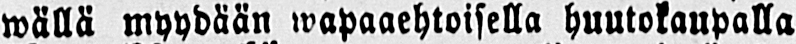wällä myydään wapaaehtoisella huutokaupalla
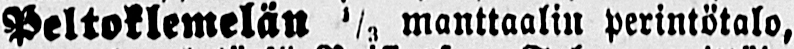Peltoklemelän ⅓ manttaalin perintötalo,
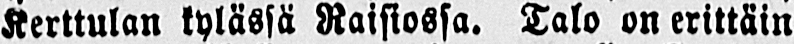Kerttulan kylässä Raisiossa. Talo on erittäin
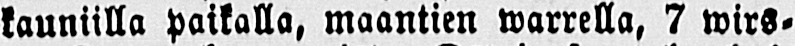kauniilla paikalla, maantien warrella, 7 wirs-
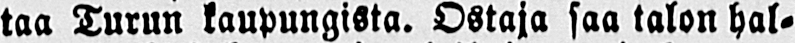taa Turun kaupungista. Ostaja saa talon hal-
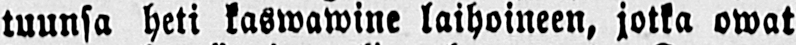tuunsa heti kaswawine laihoineen, jotka owat
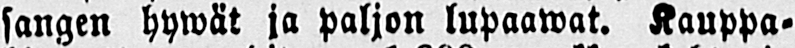sangen hywät ja paljon lupaawat. Kauppa-
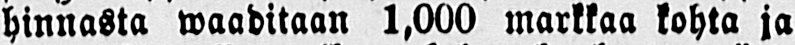hinnasta waaditaan 1,000 markkaa kohta ja
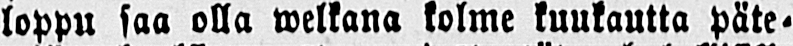loppu saa olla welkana kolme kuukautta päte-
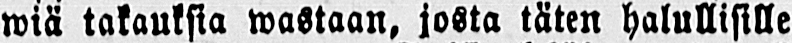wiä takauksia wastaan, josta täten halullisille
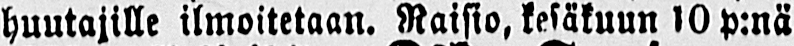huutajille ilmoitetaan. Raisio, kesäkuun 10 p:nä
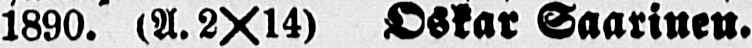1890. (A.2Xl4) Oskar Saarinen.
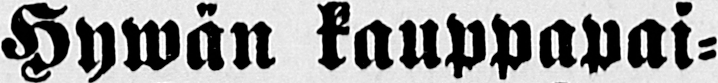Hywän kauppapai-
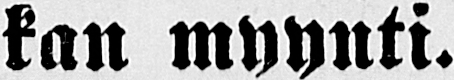kan myynti.
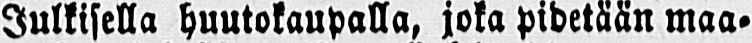Julkisella huutokaupalla, joka pidetään maa-
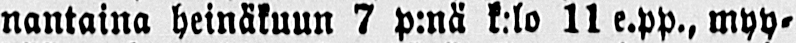nantaina heinäkuun 7 p:nä k.lo lle.pp., myy-
